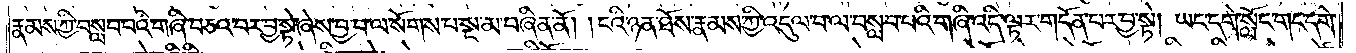རྣམས་ཀྱི་བསླབ་པའི་གཞི་བཅའ་བར་བྱ་སྟེ་ཞེས་བྱ་བ་ལ་སོགས་པ་སྔ་མ་བཞིན་ནོ། །ངའི་ཉན་ཐོས་རྣམས་ཀྱི་འདུལ་བ་ལ་བསླབ་པའི་གཞི་འདི་ལྟར་གདོན་པར་བྱ་སྟེ། ཡང་དགེ་སློང་གང་དགེ་
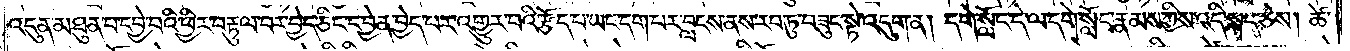འདུན་མཐུན་པ་དབྱེ་བའི་ཕྱིར་བརྟུལ་བར་བྱེད་ཅིང་དབྱེན་བྱེད་པར་འགྱུར་བའི་རྩོད་པ་ཡང་དག་པར་བླངས་ནས་རབ་ཏུ་བཟུང་སྟེ་འདུག་ན། དགེ་སློང་དེ་ལ་དགེ་སློང་རྣམས་ཀྱིས་འདི་སྐད་ཅེས། ཚེ་
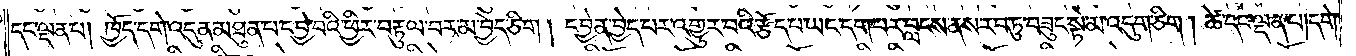དང་ལྡན་པ། ཁྱོད་དགེ་འདུན་མཐུན་པ་དབྱེ་བའི་ཕྱིར་བརྟུལ་བར་མ་བྱེད་ཅིག །དབྱེན་བྱེད་པར་འགྱུར་པའི་རྩོད་པ་ཡང་དག་པར་བླངས་ནས་རབ་ཏུ་བཟུང་སྟེ་མ་འདུག་ཅིག །ཚེ་དང་ལྡན་པ། དགེ་
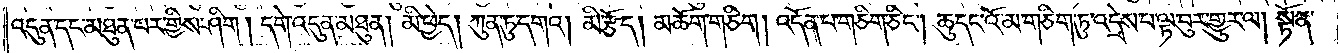འདུན་དང་མཐུན་པར་གྱིས་ཤིག །དགེ་འདུན་མཐུན། མི་ཕྱེད། ཀུན་ཏུ་དགའ། མི་རྩོད། མཆོག་གཅིག །འདོན་པ་གཅིག་ཅིང༌། ཆུ་དང་འོ་མ་གཅིག་ཏུ་འདྲེས་པ་ལྟ་བུར་གྱུར་ལ། སྟོན་
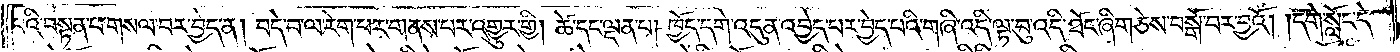པའི་བསྟན་པ་གསལ་བར་བྱེད་ན། བདེ་བ་ལ་རེག་པར་གནས་པར་འགྱུར་གྱི། ཚེ་དང་ལྡན་པ། ཁྱོད་དགེ་འདུན་འབྱེད་པར་བྱེད་པའི་གཞི་འདི་ལྟ་བུ་འདི་ཐོང་ཞིག་ཅེས་བསྒོ་བར་བྱའོ། །དགེ་སློང་དེ་
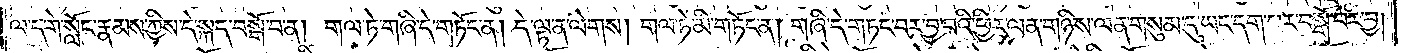ལ་དགེ་སློང་རྣམས་ཀྱིས་དེ་སྐད་བསྒོ་བ་ན། གལ་ཏེ་གཞི་དེ་གཏོང་ན། དེ་ལྟ་ན་ལེགས། གལ་ཏེ་མི་གཏོང་ན། གཞི་དེ་གཏང་བར་བྱ་བའི་ཕྱིར་ལན་གཉིས་ལན་གསུམ་དུ་ཡང་དག་པར་བསྒོ་བར་བྱ།
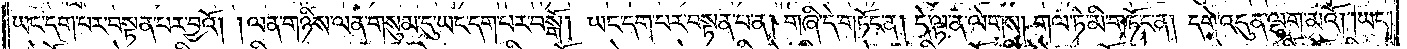ཡང་དག་པར་བསྟན་པར་བྱའོ། །ལན་གཉིས་ལན་གསུམ་དུ་ཡང་དག་པར་བསྒོ། ཡང་དག་པར་བསྟན་པ་ན། གཞི་དེ་གཏོང་ན། དེ་ལྟ་ན་ལེགས། གལ་ཏེ་མི་གཏོང་ན། དགེ་འདུན་ལྷག་མའོ། །ཡང་
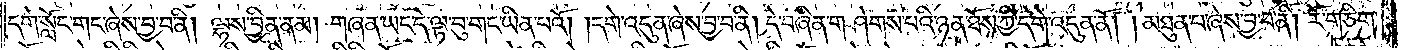དགེ་སློང་གང་ཞེས་བྱ་བ་ནི། ལྷས་བྱིན་ནམ། གཞན་ཡང་དེ་ལྟ་བུ་གང་ཡིན་པའོ། །དགེ་འདུན་ཞེས་བྱ་བ་ནི། དེ་བཞིན་གཤེགས་པའི་ཉན་ཐོས་ཀྱི་དགེ་འདུན་ནོ། །མཐུན་པ་ཞེས་བྱ་བ་ནི། རོ་གཅིག་
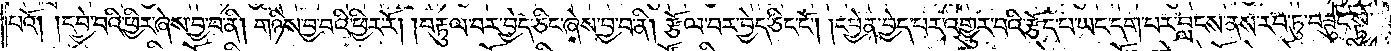པའོ། །དབྱེ་བའི་ཕྱིར་ཞེས་བྱ་བ་ནི། གཉིས་བྱ་བའི་ཕྱིར་རོ། །བརྟུལ་བར་བྱེད་ཅིང་ཞེས་བྱ་བ་ནི། རྩོལ་བར་བྱེད་ཅིང་ངོ༌། །དབྱེན་བྱེད་པར་འགྱུར་བའི་རྩོད་པ་ཡང་དག་པར་བླངས་ནས་རབ་ཏུ་བཟུང་སྟེ་
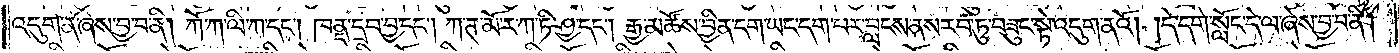འདུག་ན་ཞེས་བྱ་བ་ནི། ཀོ་ཀ་ལི་ཀ་དང༌། ཁནྡ་དྲབ་བྱ་དང༌། ཀ་ཊ་མོ་ར་ཀ་ཏི་ཤྱ་དང༌། རྒྱ་མཚོས་བྱིན་དག་ཡང་དག་པར་བླངས་ནས་རབ་ཏུ་བཟུང་སྟེ་འདུག་ནའོ། །དེ་དགེ་སློང་དེ་ལ་ཞེས་བྱ་བ་ནི།
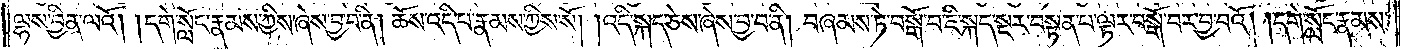ལྷས་བྱིན་ལའོ། །དགེ་སློང་རྣམས་ཀྱིས་ཞེས་བྱ་བ་ནི། ཆོས་འདི་པ་རྣམས་ཀྱིས་སོ། །འདི་སྐད་ཅེས་ཞེས་བྱ་བ་ནི། བཞམས་ཏེ་བསྒོ་བ་ཇི་སྐད་སྔར་བསྟན་པ་ལྟར་བསྒོ་བར་བྱ་བའོ། །དགེ་སློང་རྣམས་
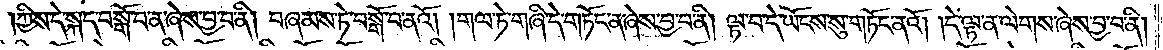ཀྱིས་དེ་སྐད་བསྒོ་བ་ན་ཞེས་བྱ་བ་ནི། བཞམས་ཏེ་བསྒོ་བ་ནའོ། །གལ་ཏེ་གཞི་དེ་གཏོང་ན་ཞེས་བྱ་བ་ནི། ལྟ་བ་དེ་ཡོངས་སུ་གཏོང་ནའོ། །དེ་ལྟ་ན་ལེགས་ཞེས་བྱ་བ་ནི།
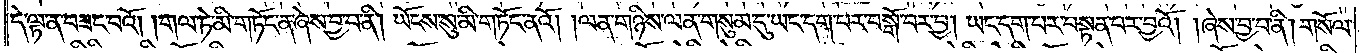དེ་ལྟ་ན་བཟང་བའོ། །གལ་ཏེ་མི་གཏོང་ན་ཞེས་བྱ་བ་ནི། ཡོངས་སུ་མི་གཏོང་ནའོ། །ལན་གཉིས་ལན་གསུམ་དུ་ཡང་དག་པར་བསྒོ་བར་བྱ། ཡང་དག་པར་བསྟན་པར་བྱའོ། །ཞེས་བྱ་བ་ནི། གསོལ་
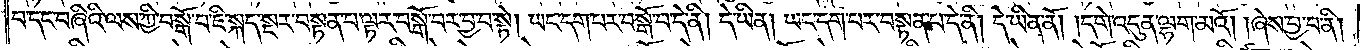བ་དང་བཞིའི་ལས་ཀྱི་བསྒོ་བ་ཇི་སྐད་སྔར་བསྟན་པ་ལྟར་བསྒོ་བར་བྱ་བ་སྟེ། ཡང་དག་པར་བསྒོ་བ་དེ་ནི། དེ་ཡིན། ཡང་དག་པར་བསྟན་པ་དེ་ནི། དེ་ཡིན་ནོ། །དགེ་འདུན་ལྷག་མའོ། །ཞེས་བྱ་བ་ནི།
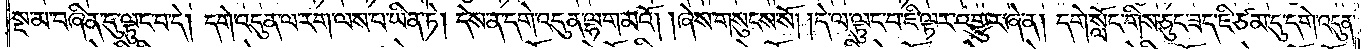སྔ་མ་བཞིན་དུ་ལྟུང་བ་དེ། དགེ་འདུན་ལ་རག་ལས་པ་ཡིན་ཏེ། དེས་ན་དགེ་འདུན་ལྷག་མའོ། །ཞེས་གསུངས་སོ། །དེ་ལ་ལྟུང་བ་ཇི་ལྟར་འགྱུར་ཞེ་ན། དགེ་སློང་གིས་ཅུང་ཟད་ཇི་ཙམ་དུ་དགེ་འདུན་
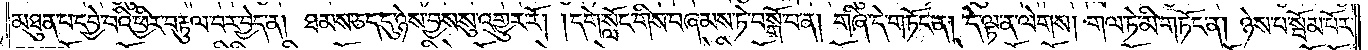མཐུན་པ་དབྱེ་བའི་ཕྱིར་བརྟུལ་བར་བྱེད་ན། ཐམས་ཅད་དུ་ཉེས་བྱས་སུ་འགྱུར་རོ། །དགེ་སློང་གིས་བཞམས་ཏེ་བསྒོ་བ་ན། གཞི་དེ་གཏོང་ན། དེ་ལྟ་ན་ལེགས། གལ་ཏེ་མི་གཏོང་ན། ཉེས་པ་སྦོམ་པོར་
